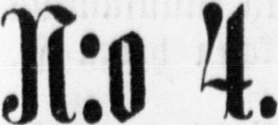N:o 4.
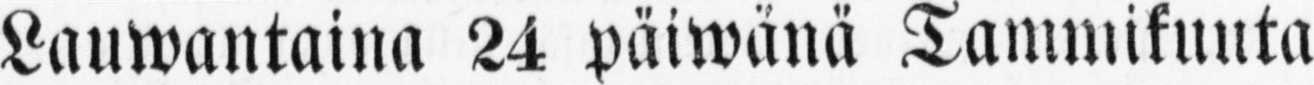Lauwantaina 24 päiwänä Tammikuuta
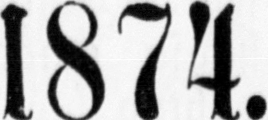1874.
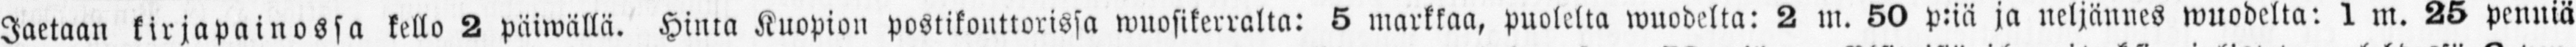Jaetaan kirjapainossa kello 2 päiwällä. Hinta Kuopion postikouttorissa wuosikerralta: 5 markkaa, puolelta wuodelta: 2 m. 60 p:iä ja neljännes wuodelta: I m. 25 penntä
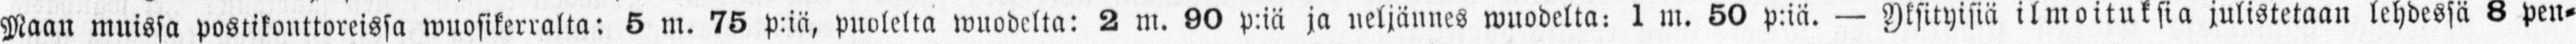Maan muissa postikonttoreissa wuosikerralta: 5 m. 75 p:iä, puolelta wuodelta: 2 m. 90 p:iä ja neljännes wuodelta: 1 m. 50 p:iä. Yksityisiä ilmoituksia julistetaan lehdessä 8 pen-
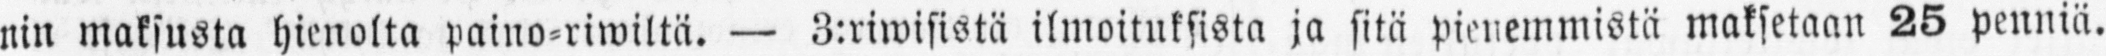nin maksusta hienolta paino-riwiltä. — 3:riwisistä ilmoituksista ja sitä pienemmistä maksetaan 25 penniä.
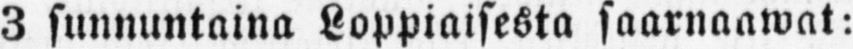3 sunnuntaina Loppiaisesta saarnaawat:
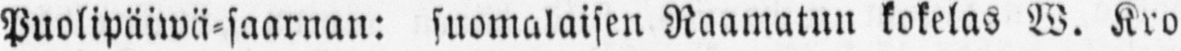Puolipäiwä-saarnan: suomalaisen Raamatun kokelas W. Kro
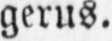gerus.
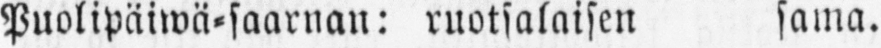Puolipäiwä-saarnan: ruotsalaisen sama.
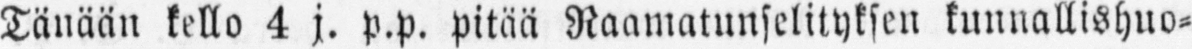Tänään kello 4 j. p.p. pitää Raamatunselityksen kunnallishuo-
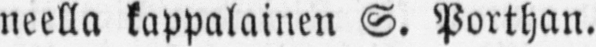neella kappalainen S. Porthan.
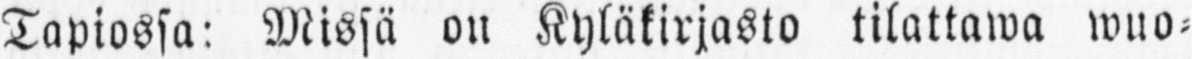Tapiossa: Missä on Kyläkirjasto tilattawa wuo-
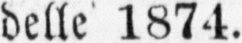delle 1874.
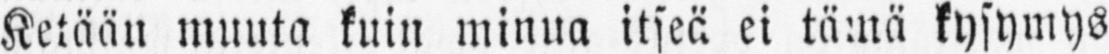Ketään muuta kuin minua itseä ei tämä kysymys
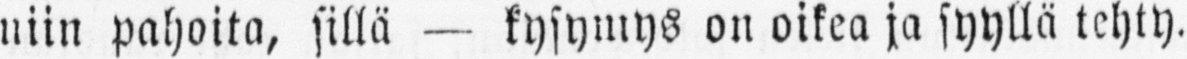niin pahoita, sillä — kysymys on oikea ja syyllä tehty.
